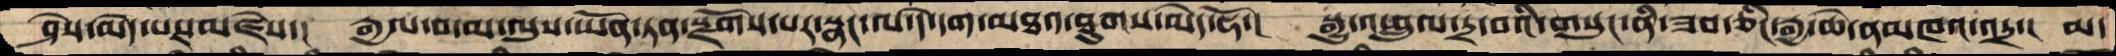ཤེས་མེད་པར་མཛེས་།  རྒྱལ་བ་མ་ལུས་ཡོན་ཏན་སྫོགས་པར་སྣང་ལ་དེ་དག་མཐའ་ཐུགས་མེད་ཧོ་།  སྒྱུ་འཕྲུལ་དྲ་བའི་གསུང་ནི་ཟབ་ཅིང་རྒྱ་ཆེ་ནམཁའ་འདྲ་།  མ་
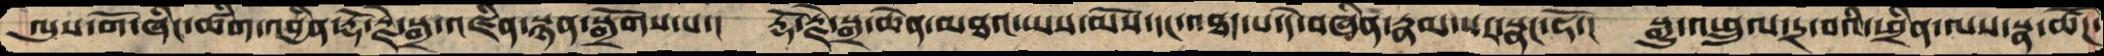ལུས་གོ་ཞིང་ཚིག་འབྱིན་རྡོ་རྗེ་སྒྲ་འཛིན་སྙན་སྒྲོགས་པ་།  རྡོ་རྗེ་སྒྲ་ཆེན་མཐའ་ཡས་མོས་དང་འཐད་པ་དེ་བཞིན་རྣམ་པར་སྣང་ཧོ་།  སྒྱུ་འཕྲུལ་དྲ་བའི་ཕྲིན་ལས་སྣ་ཚོཌ་
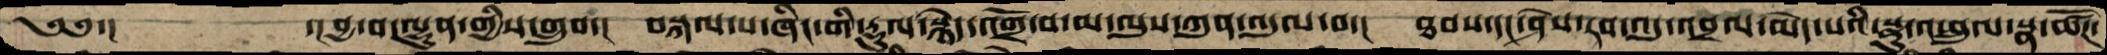༄༅་།        ་།བྱ་བ་ལྷུན་གྱིས་གྲུབ་།  བསྐལ་པ་ཞིང་གི་རྡུལ་སྙེད་འགྲོ་བ་མ་ལུས་ཀུན་འདུལ་བ་།  ཐབས་དང་ཤེས་རབ་འདུ་འབྲལ་མེད་པའི་སྫུ་འཕྲུལ་སྣ་ཚོཌ་
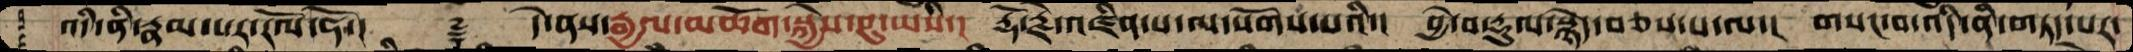འདི་ནི་རྣམ་པར་རོལ་ཧོ་།   ༈  དེ་ནས་རྒྱལ་མཆོག་་སྐྱེས་བུ་ཡིས་། རྡོ་རྗེ་འཛིན་པ་ལ་སོགས་པའི་། བྱེ་བ་རྡུལ་སྙེད་བཅས་པ་ལ་། གསང་བ་འདི་ནི་གཏད་པར་
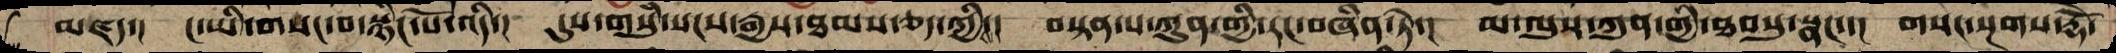མཛད་། ང་ཡི་གསང་བ་སྙིང་པོ་འདི་། དུས་གསུཾ་སངས་རྒྱས་ཐམས་ཅད་ཀྱིས་། བསྟན་པ་ཀུན་གྱི་རང་བཞིན་ཏེ་། མ་ལུས་ཀུན་གྱི་ཐབསུ་སྣང་་། གསང་སྔགས་རྡོེ་
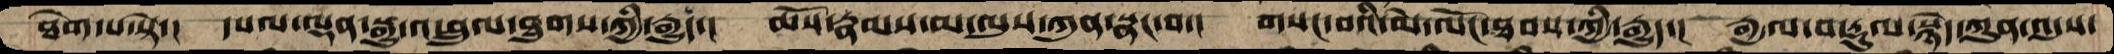ཐེག་པ་སྟེ་།   དཔལ་ལྡན་སྒྱུ་འཕྲུལ་ཐུགས་ཀྱི་རྒྱུད་།   ཆོས་རྣམས་མ་ལུས་ཀུན་སྣང་བ་།  གསང་བའི་མེ་ལོང་ཐབས་ཀྱི་རྒྱུད་།  རྒྱལ་བ་རྡུལ་སྙེད་ཀུན་འདུས་
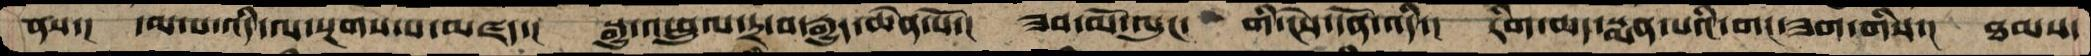ནས་།  དམ་པ་འདི་ལ་སྔགས་པ་མཛད་།  སྒྱུ་འཕྲུལ་དྲ་བ་རྒྱུད་ཆེན་པོ་།  ཟབ་མོ་ལུང་   གི་ངེས་དོན་འདི་།  རིག་ཆད་སྨན་པའི་གང་ཟག་གིས་།  ཐམས་
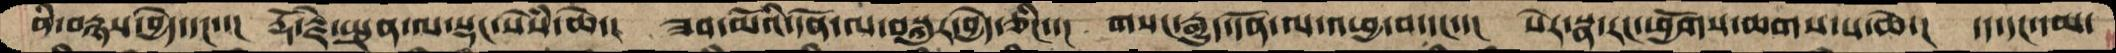ནི་བརྙས་བྱེད་དང་་།  རྡོ་རྗེ་སྤུན་ལ་སྡང་སེསཾ་ཆེ་།  ཟབ་མོའི་དོན་ལ་བསྐུར་བྱེད་ཅིང་།  གསང་རྒྱུད་དོན་ལ་འཕྱ་བ་དང་་།  སེར་སྣ་རང་ཕྱོགས་ཆགས་པ་ཆེ་།  དད་དང་དམ་
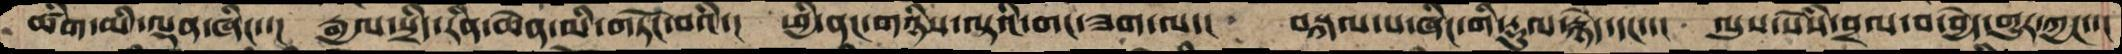ཚིག་མི་ལྡན་ཞིང་་།  རྒྱལ་སྲིད་རིན་ཆེན་མི་གཏོང་བའི་།  ཕྱི་ནང་གཉིས་ལྟའི་གང་ཟག་ལ་།  བསྐལ་པ་ཞིང་གི་རྡུལ་རྙེད་དང་་།  ལུས་སེཾས་བྲལ་བ་བྱེད་གྱུར་ཀྱང་་།
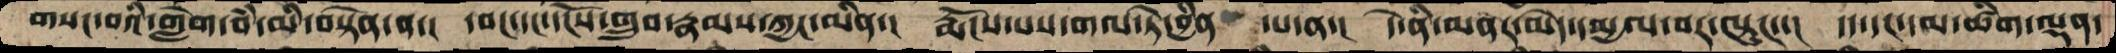གསང་བའི་གླེག་བཾ་མི་བསྟེན་ན་།  དབང་དང་དངོས་གྲུབ་རྣམས་ཀྱང་མིན་།  རྨོངས་པས་གལ་ཏེ་བྱིན་ པ་ན་།  དེ་ནི་མནར་མེད་དམྱལ་བར་ལྟུང་་།  དད་དང་དམ་ཚིག་ལྡན་
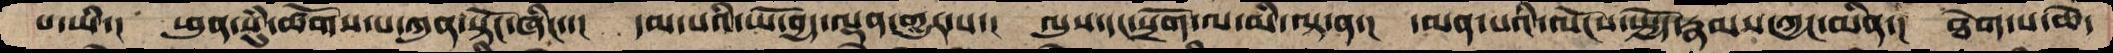པ་ཡི་།  ཕུན་སུཾ་ཚོགས་པ་ཀུན་སྟོང་ཞིང་་།  དམ་པའི་ཡོ་བྱད་ལྡན་གྱུར་པ་།  ལུས་དང་སྲོག་ལ་མི་ལྟ་ན་།  དམན་པའི་ལོངས་སྤྱོད་རྣམས་ཀྱང་མིན་།  ཐེག་པ་ཆེ་
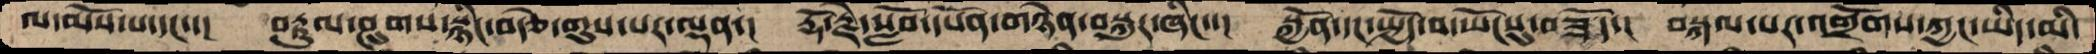ལ་མོས་པ་དང་་།  བརྟུལ་ཤུགས་སྙིང་བརྩེ་གུས་པར་ལྡན་།  རྡོ་རྗེ་སློབ་དཔོན་གཉེན་བསྐུར་ཞིང་་།  སྐྱོན་དང་སྤྱོད་བ་ཡོངསུ་བཟོད་།  བསྐལ་པར་འགྲོགས་ཀྱང་ཡིད་མི་
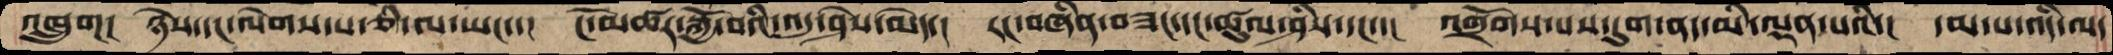འཁྲུག།  ཉེས་དང་ལེགས་པ་ཅི་ལ་ཡང་་།  ངོ་མཚར་སྐྱོ་བའི་འདུ་ཤེས་མེད་།  རང་བཞིན་བཟང་དང་ཚུལ་ཤིས་དང་་།  འགྲོགས་པས་དུག་ནད་མི་ལྡན་པའི་།  དམ་པ་འདི་ལ་
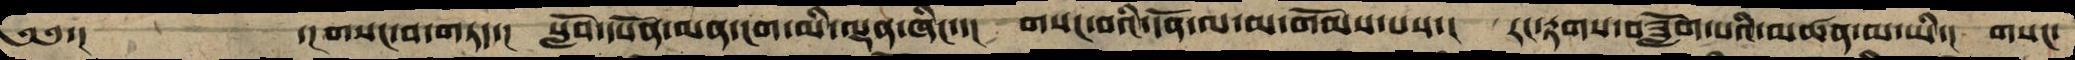༄༅་།          ་།གསང་བ་གཏད་།  སློབ་དཔོན་མན་ངག་མི་ལྡན་ཞིང་་།  གསང་བའི་དོན་ལ་མ་གོམས་པས་།  རང་རྟགས་བཟློག་པའི་མཚན་མ་ཡི་།  གསང་
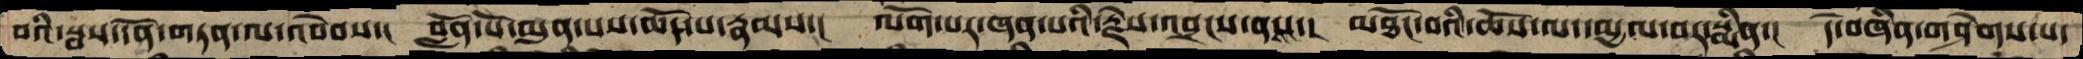བའི་སྦས་དོན་གཏན་ལ་འབེབས་།   བློན་པོ་མུན་པས་ཆོད་པ་རྣམས་།  ལོག་པར་ཞན་པའི་རྗེས་འབྲངས་ནས་།  མཐོང་བའི་ཆོས་ལ་དམྱལ་བར་སྨིན་།  དེ་བཞིན་གཤེགས་པ་
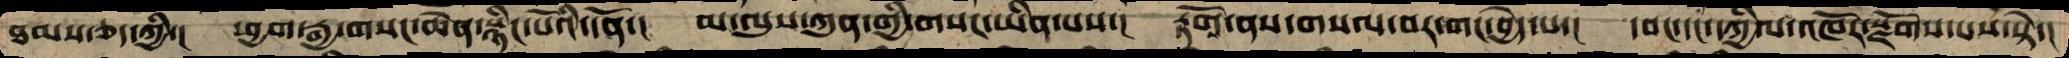ཐམས་ཅད་ཀྱི་།  ཕྱག་རྒྱ་གསང་ཆེན་སྙིང་པོའི་དོན་།  མ་ལུས་ཀུན་གྱི་གསང་ཡིན་པས་།  རྟོག་ནས་གསལ་བར་གང་བྱེད་པ་།  དབང་དང་དཀྱིལ་འཁོར་སྫོགས་པས་སྟེ་།
